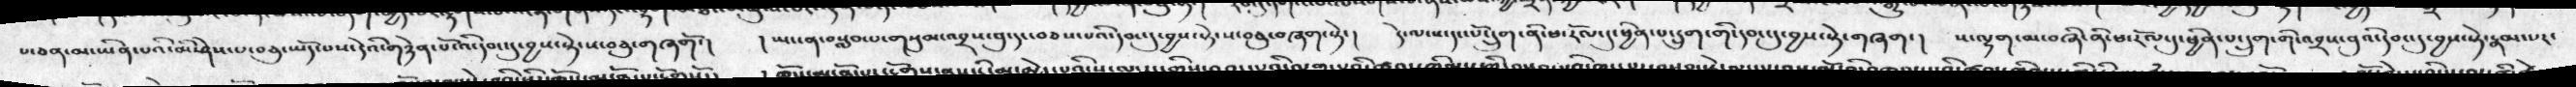པ་ཅན་མ་ཡིན་པའི་མི་ཤེས་པ་བཅུ་ཡོད་པས་དེའི་གཉེན་པོ་འི་དབང་དུ་བྱས་སྟེ་ས་བཅུ་གཞགོ་། ། ཡང་ན་བསླབ་པ་གསུམ་འབྲས་བུ་དང་བཅས་པའི་དབང་དུ་བྱས་སྟེ་ས་བཅུ་བཞག་སྟེ་།  དེ་ལ་ས་དང་པོ་དྲུག་ནི་ཕ་རོལ་དུ་ཕྱིན་པ་དྲུག་གི་དབང་དུ་བྱས་སྟེ་གཞག་།  ས་ལྷག་མ་བཞི་ནི་ཕ་རོལ་དུ་ཕྱིན་པ་དྲུག་གི་འབྲས་བུའི་དབང་དུ་བྱས་སྟེ་རྣམ་པར་
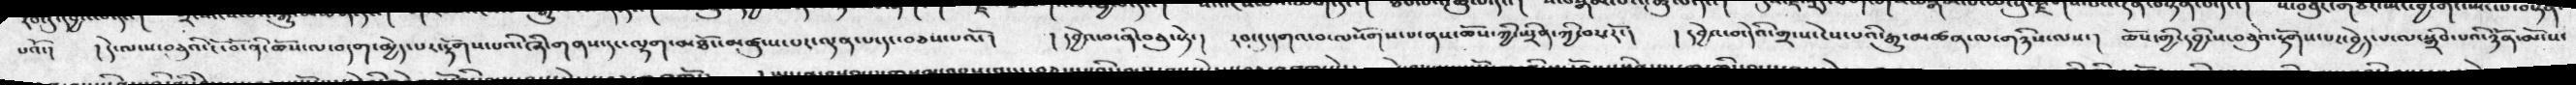པའོ་།  ། དེ་ལ་ས་བཅུའི་ངོ་བོ་ནི་ཆོས་ལ་བདག་མྱེད་པ་རྟོགས་པའི་ཞི་གནས་དང་ལྷག་མཐོང་མཚུངས་པར་ལྡན་པ་དང་བཅས་པའོ་།  ། དབྱེའ་བ་ནི་བཅུ་སྟེ་།   རབ་དུ་དགའ་བ་ལསོགས་པ་ནས་ཆོས་ཀྱི་སྤྲིན་ཀྱི་བར་རོ་།   ། དབྱེའ་བ་དེའི་གྲ་ས་ངེས་པའི་རྒྱུ་མཚན་ལ་གཉིས་ལས་།  ཆོས་ཀྱི་དབྱིངས་བཅུའ་རྟོགས་པར་བྱེད་པ་ལ་སྒྲིབ་པའི་ཉོན་མོངས་
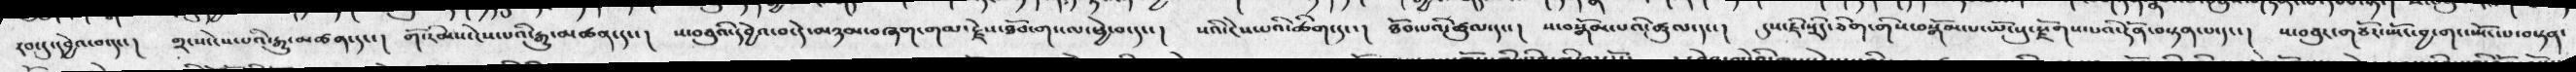རབ་དུ་དབྱེའ་བ་དང་།  གྲངས་ངེས་པའི་རྒྱུ་མཚན་དང་།  གོ་རིམ་ངེས་པའི་རྒྱུ་མཚན་དང་།  ས་བཅུའི་དབྱེའ་བ་དེ་མཉམ་བཞག་གམ་རྗེས་ཐོབ་གསལ་ཕྱེ་བ་དང་།  སའི་ངེས་པའི་ཚིག་དང་།  ཐོབ་པའི་ཚུལ་དང་།  ས་བསྒོམ་པའི་ཚུལ་དང་།   དུས་ཇི་སྲིད་ཅིག་གིས་བསྒོམས་པ་ཡོངསུ་རྫོགས་པའི་དོན་བསྟན་པ་དང་།  ས་བཅུར་གཙོར་སྤོང་བྱ་གང་སྤོང་པ་བསྟན་
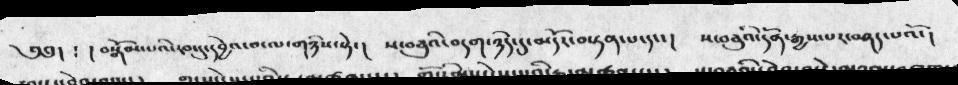༄༅། ༴  ། བསྒོམ་པའི་རབ་དུ་དབྱེའ་བ་ལ་གཉིས་སྟེ་།  ས་བཅུའི་བདག་ཉིད་དུ་མདོར་བསྟན་པ་དང་།   ས་བཅུའི་དོན་རྒྱས་པར་བཤད་པའོ་།
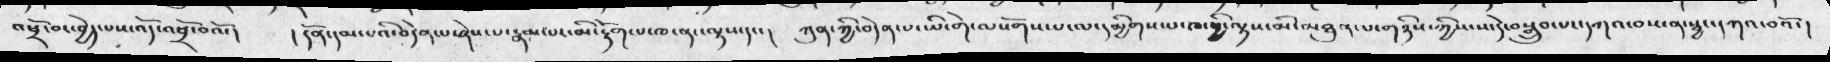འཕྲོ་བ་བྱེད་པས་འོད་འཕྲོ་བའོ།  ། དོནདམ་པའི་བདེན་པ་ཤེས་པ་རྣམ་པར་མི་རྟོག་པ་ཁ་ནང་ལྟས་དང་།  ཀུན་ཀྱི་བདེན་པ་ཡི་གེ་ལསོགས་པ་ལ་དམྱིགས་པ་ཁ་ཕྱི་ལྟས་མོ་མཐུན་པ་གཉིས་ཀྱིས་ས་དེ་བསྒྲུབ་པ་དཀའ་བས་ན་སྦྱང་དཀའ་བའོ་།
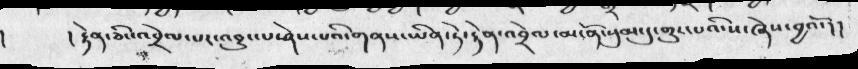།    ། རྟེན་ཅིང་འབྲེལ་པར་འབྱུང་པ་ཤེས་པའི་གནས་ཡིན་ཏེ་རྟེན་འབྲེལ་མངོན་སུམ་གྱུར་པའི་ས་ཞེས་བྱའོ་།།
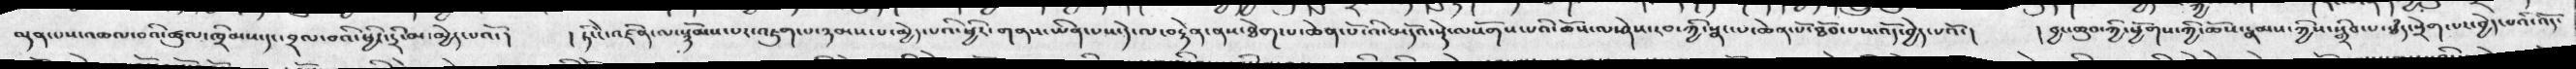ལྡན་པས་འཆལ་བའི་ཚུལ་ཁྲིམས་དང་བྲལ་བའི་ཕྱིར་དྲི་མ་མྱེད་པའོ་།   ། ཏིང་ངེ་འཛིན་ལ་སྙོམས་པར་འཇུག་པ་ཉམས་མྱེད་པའི་ཕྱིར་གནས་ཡིན་པས་དེ་ལ་བརྟེན་ནས་ཐེག་པ་ཆེན་པོ་འི་མདོའ་སྡེ་ལསོགས་པའི་ཆོས་ལ་ཤེས་རབ་ཀྱི་སྣང་པ་ཆེན་པོ་ཐོབ་པས་འོད་བྱེད་པའོ་།  །བྱང་ཆུབ་ཀྱི་ཕྱོགས་ཀྱི་ཆོས་རྣམས་ཀྱིས་སྒྲིབ་པ་ཐཾད་སྲེག་པར་བྱེད་པའི་འོད་
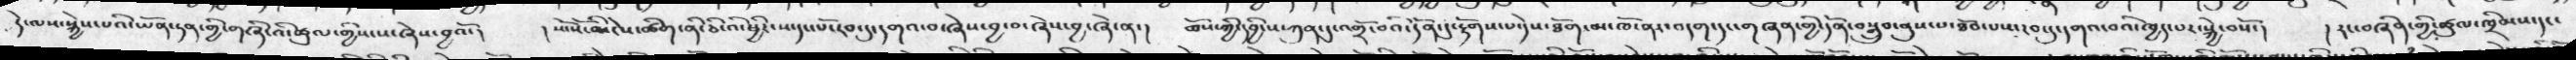དེ་ལས་སྐྱེས་པའི་ཡོན་ཏན་གྱི་གཞི་འི་ཚུལ་གྱིས་ས་ཞེས་བྱའོ་།   །  སོ་སོ་འི་ངེས་ཚིག་ནི་ཅི་འི་ཕྱིར་ས་དང་པོ་རབ་དུ་དགའ་བ་ཞེས་བྱ་ཞེ་ན་།   ཆོས་གྱི་དབྱིངས་ཀུན་དུ་འགྲོ་བའི་དོན་དུ་རྟོགས་པ་དེས་ཐོག་མ་ཁོ་ནར་བདག་དང་གཞན་གྱི་དོན་བསྒྲུབ་ནུས་པ་ཐོབ་པས་རབ་དུ་དགའ་བའི་ཁྱད་པར་སྐྱེད་བསོ་།   ། རང་བཞིན་གྱི་ཚུལ་ཁྲིམས་དང་
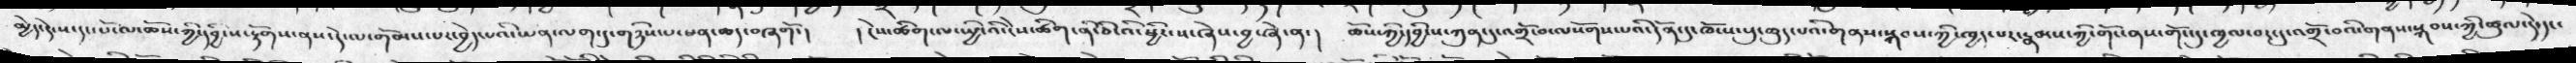མྱེད་དེ་ས་དང་པོ་ལ་ཆོས་ཀྱི་དབྱིངས་རྟོགས་ནས་དེ་ལ་གོམས་པར་བྱེད་པའི་ཡན་ལག་དུ་གཉིས་པ་ཕན་ཆད་བཞགོ་།   ། ངེས་ཚིག་ལ་ཡྱི་འི་ངེས་ཚིག་ནི་ཅི་འི་ཕྱིར་ས་ཞེས་བྱ་ཞེ་ན་།   ཆོས་ཀྱི་དབྱིངས་ཀུན་དུ་འགྲོ་བ་ལསོགས་པའི་དོན་དུ་ཁོངས་སུ་ཆུད་པའི་གནས་སྐབས་ཀྱི་ཁྱད་པར་རྣམས་ཀྱི་གོང་ནས་གོང་དུ་ཁྱལ་བར་དུ་འགྲོ་བའི་གནས་སྐབས་ཀྱི་ཚུལ་དེ་དང་
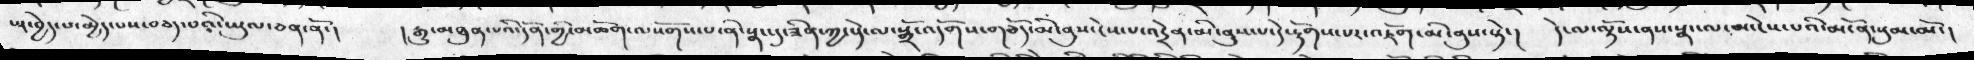པར་བྱེད་པ་མྱེད་པས་བཅད་པའི་ཡུལ་ཅན་ནོ་།   །   རྒྱུ་མཐུན་པའི་དོན་གྱི་མཆོག་ལསོགས་པ་ནི་སྣང་དུ་ཟིན་ཀྱང་དེ་ལ་སྒྲོ་འདོགས་གཅོད་མི་ནུས་ངེས་པ་འདྲེན་མི་ནུས་པ་དེ་རྟོགས་པར་འཇོག་མི་ནུས་སྟེ་།   དེ་ལ་ལྟོས་ནས་སྣང་ལ་མ་ངེས་པའི་མངོན་སུམ་མོ་།
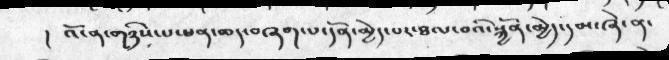།  འོ་ན་གཉིས་པ་ཕན་ཆད་བཞག་པ་དོན་མྱེད་པར་ཐལ་བའི་སྐྱོན་མྱེད་དམ་ཞེ་ན་
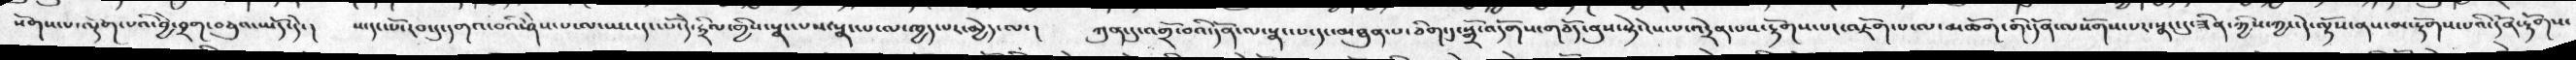སོགས་པ་ལྡོག་པའི་བྱེ་བྲག་བཅུའ་ཡོད་དེ་།   ས་དང་པོ་རབ་དུ་དགའ་བའི་ཤེས་པ་ལ་ཡང་དང་པོ་དེ་ཧྲིལ་གྱིས་སྣང་པས་སྣང་པ་ལ་ཁྱད་པར་མྱེད་ལ་།   ཀུན་དུ་འགྲོ་བའི་དོན་ལ་སྣང་པ་དང་མཐུན་པ་ཅིག་དུ་སྒྲོ་འདོགས་གཅོད་ནུས་སྟེ་ངེས་པ་འདྲེན་པས་རྟོགས་པར་འཇོག་པ་ལ་མཆོག་གི་དོན་ལསོགས་པར་སྣང་དུ་ཟིན་ཀྱིས་ཀྱང་དེ་ལྟོས་ནས་མ་རྟོགས་པའི་དོན་རྟོགས་
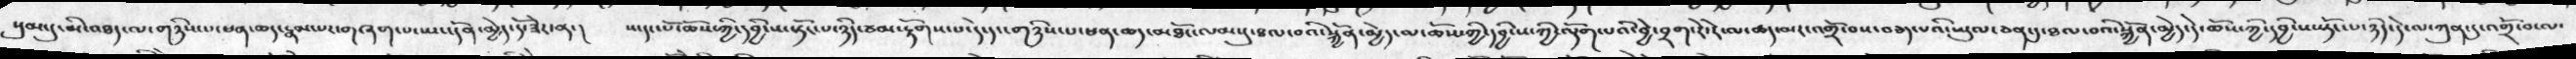སུམ་དུ་མི་འཐད་ལ་གཉིས་པ་ཕན་ཆད་རྣམ་པར་བཞག་པ་ཡང་དོན་མྱེད་དོ་ཟེར་ན་།   ས་དང་པོ་ཆོས་ཀྱི་དབྱིངས་སྟོང་པ་ཉིད་ཙམ་རྟོགས་པ་དེ་དང་གཉིས་པ་ཕན་ཆན་མཐོང་ལམ་དུ་ཐལ་བའི་སྐྱོན་མྱེད་ལ་ཆོས་ཀྱི་དབྱིངས་ཀྱི་ལྡོག་པའི་བྱེ་བྲག་རེ་རེ་ལ་ཚད་མར་འགྲོ་བས་བཅད་པའི་ཡུལ་ཅན་དུ་ཐལ་བའི་སྐྱོན་མྱེད་དེ་ཆོས་ཀྱི་དབྱིངས་སྟོང་པ་ཉིད་དེ་ལ་ཀུན་དུ་འགྲོ་བ་ལ་
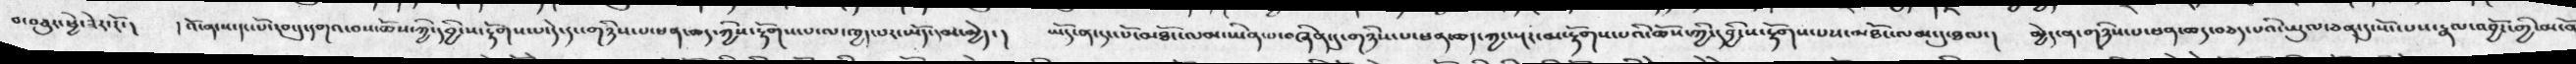བ་བཅུར་ཕྱེ་ཟེར་རོ་།  །འོ་ན་དང་པོ་རབ་དུ་དགའ་བས་ཆོས་ཀྱི་དབྱིངས་རྟོགས་པ་དེ་དང་གཉིས་པ་ཕན་ཆད་ཀྱིས་རྟོགས་པ་ལ་ཁྱད་པར་ཡོད་དམ་མྱེད་།  ཡོད་ན་དང་པོ་མཐོང་ལམ་ཡིན་པ་བཞིན་དུ་གཉིས་པ་ཕན་ཆད་ཀྱང་སྔར་མ་རྟོགས་པའི་ཆོས་ཀྱི་དབྱིངས་རྟོགས་པས་མཐོང་ལམ་དུ་ཐལ་།   མྱེད་ན་གཉིས་པ་ཕན་ཆད་བཅད་པའི་ཡུལ་ཅན་དུ་སོང་པས་རྣལ་འབྱོར་གྱི་མངོན་
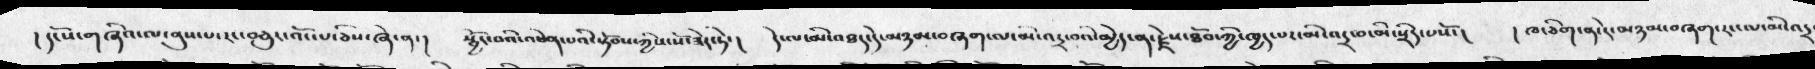། དངོས་གཞིའ་ལ་ནུས་པ་རང་བཅུར་འོང་པ་ཅིས་ཞེ་ན་།  སྦྱོར་བའི་འཕེན་པའི་སྟོབས་ཀྱིས་སོ་ཟེར་ཏེ་།   དེ་ལ་མི་འཐད་དེ་མཉམ་བཞག་ལ་མི་འདྲ་བའི་མྱེད་ན་རྗེས་ཐོབ་ཀྱི་ཁྱད་པར་མི་འདྲ་བ་མི་སྲིད་པསོ་།   ། ཁ་ཅིག་ན་རེ་མཉམ་བཞག་རང་ལ་མི་འདྲ་
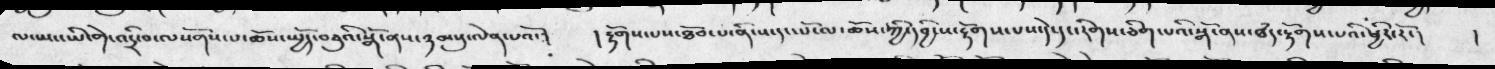ལ་ཡང་ཡི་གེ་འདྲི་བ་ལསོགས་པ་ཆོས་སྤྱོད་བཅུའི་སྒོ་ནས་ཉམསུ་ལེན་པའོ་།  །རྟོགས་པས་ཐོབ་པ་ནི་ས་དང་པོ་ལ་ཆོས་ཀྱི་དབྱིངས་རྟོགས་པས་དེ་དང་རིགས་ཅིག་པའི་སྒོ་ནས་ཐཾད་རྟོགས་པའི་ཕྱིར་རོ་། །
